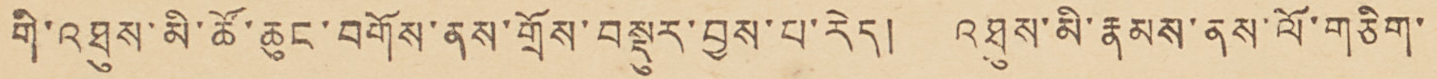གི་འཐུས་མི་ཚོགས་ཆུང་བགོས་ནས་གྲོས་བསྡུར་བྱས་པ་རེད། འཐུས་མི་རྣམས་ནས་ལོ་གཅིག་
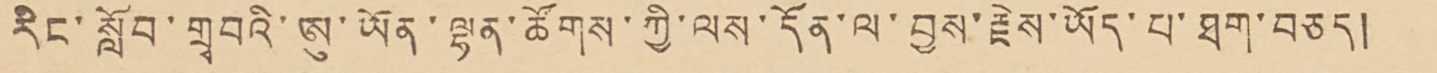རིང་སློབ་གྲྭ བའི་ཨུ་ཡོན་ལྷན་ཚོགས་ཀྱི་ལས་དོན་ལ་བྱས་རྗེས་ཡོད་པ་ཐག་བཅད།
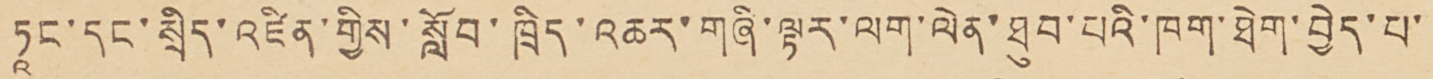ཏཱང་དང་སྲིད་འཛིན་གྱིས་སློབ་ཁྲིད་འཆར་གཞི་ལྟར་ལག་ལེན་ཐུབ་པའི་ཁག་ཐེག་བྱེད་པ་
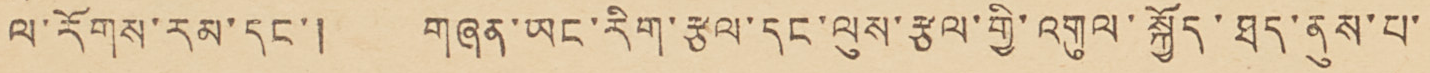ལ་རོགས་རམ་དང་། གཞན་ཡང་རིག་རྩལ་དང་ལུས་རྩལ་གྱི་འགུལ་སྐྱོད་ཐད་ནུས་པ་
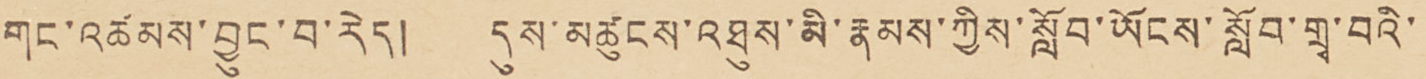གང་འཚམས་བྱུང་བ་རེད། དུས་མཚུངས་འཐུས་མི་རྣམས་ཀྱིས་སློབ་ཡོངས་སློབ་གྲྭ་བའི་
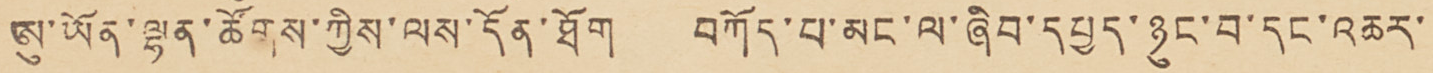ཨུ་ཡོན་ལྷན་ཚོགས་ཀྱིས་ལས་དོན་ཐོག བཀོད་པ་མང་ལ་ཞིབ་དཔྱད་ཉུང་བ་དང་འཆར་
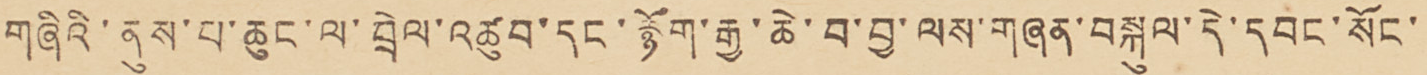གཞིའི་ནུས་པ་ཆུང་ལ་བྲེལ་འཚུབ་དང་རྙོག་རྒྱ་ཆེ་བ་བྱ་ལས་གཞན་བསྐུལ་དེ་དབང་སོང་
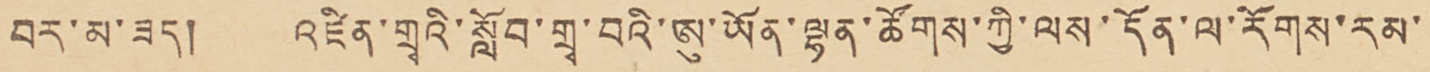བར་མ་ཟད། འཛིན་གྲྭའི་སློབ་གྲྭ་བའི་ཨུ་ཡོན་ལྷན་ཚོགས་ཀྱི་ལས་དོན་ལ་རོགས་རམ་
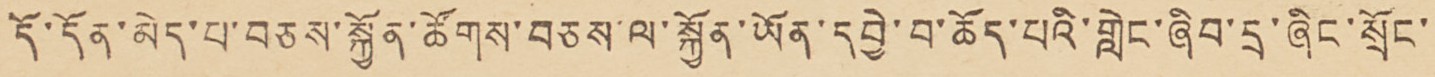དོ་དོན་མེད་པ་བཅས་སྐྱོན་ཚོགས་བཅས་ལ་སྐྱོན་ཡོན་དབྱེད་བ་ཆོད་པའི་གླེང་ཞིབ་དྲ་ཞིང་སྲོང་
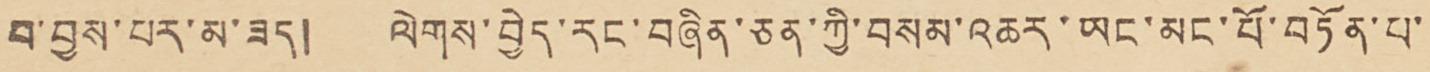བ་བྱས་པར་མ་ཟད། ལེགས་བྱེད་རང་བཞིན་ཅན་ཀྱི་བསམ་འཆར་ཡང་མང་པོ་བཏོན་པ་
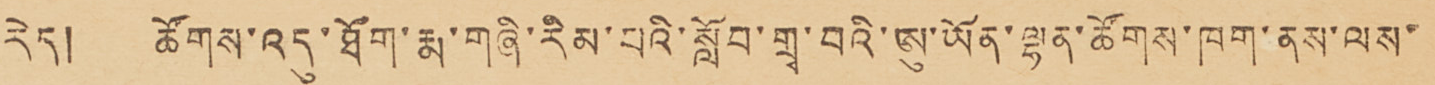རེད། ཚོགས་འདུ་ཐོག་རྨ་གཞི་རིམ་པའི་སློབ་གྲྭ་བའི་ཨུ་ཡོན་ལྷན་ཚོགས་ཁག་ནས་ལས་
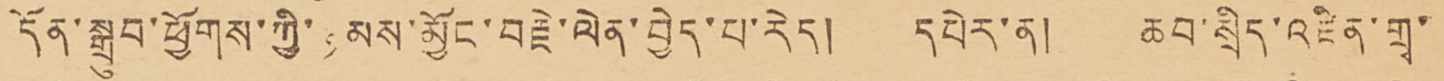དོན་སྒྲུབ་ཕྱོགས་ཀྱི་ཉམས་མྱོང་བརྗེ་ལེན་བྱེད་པ་རེད། དཔེར་ན། ཆབ་སྲིད་འཛིན་གྲྭ་
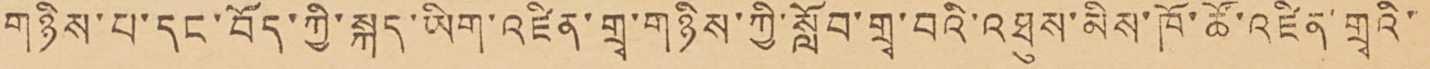གཉིས་པ་དང་བོད་ཀྱི་སྐད་ཡིག་འཛིན་གྲྭ་གཉིས་ཀྱི་སློབ་གྲྭ་བའི་འཐུས་མིས་ཁོ་ཚོ་འཛིན་གྲྭའི་
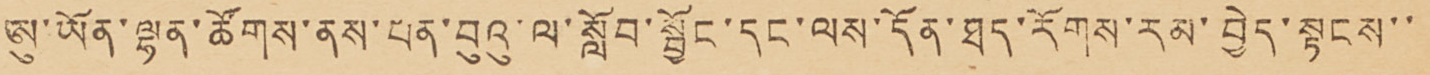ཨུ་ཡོན་ལྷན་ཚོགས་ནས་པན་བུའུ་ལ་སློབ་སྦྱོང་དང་ལས་དོན་ཐད་རོགས་རམ་བྱེད་སྟངས་་
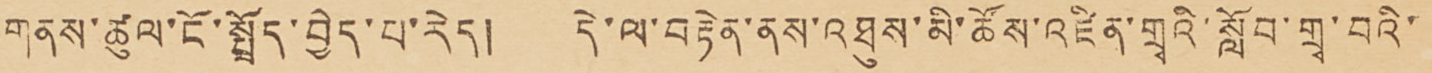གནས་ཚུལ་ངོ་སྤྲོད་བྱེད་པ་རེད། དེ་ལ་བརྟེན་ནས་འཐུས་མི་ཚོས་འཛིན་གྲྭའི་སློབ་གྲྭ་བའི་
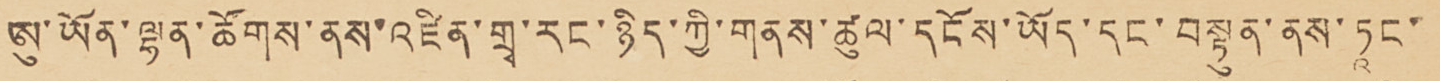ཨུ་ཡོན་ལྷན་ཚོགས་ནས་འཛིན་གྲྭ་རང་ཉིད་ཀྱི་གནས་ཚུལ་དངོས་ཡོད་དང་བསྟུན་ནས་ཏཱང་
